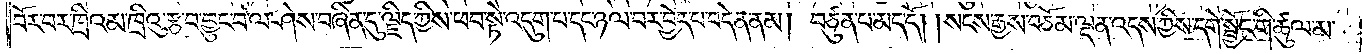བོར་བར་ཁྲིའམ་ཁྲིའུ་རྩ་བ་བྱུང་བ་ལ་ཤེས་བཞིན་དུ་ལྗིད་ཀྱིས་ཕབ་སྟེ་འདུག་པ་དང་ཉལ་བར་བྱེད་པ་བདེན་ནམ། བཙུན་པ་མད་དོ། །སངས་རྒྱས་བཅོམ་ལྡན་འདས་ཀྱིས་དགེ་སྦྱོང་གི་ཚུལ་མ་
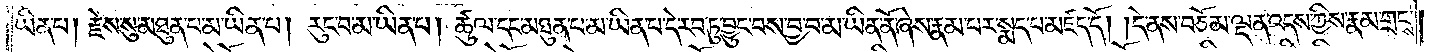ཡིན་པ། རྗེས་སུ་མཐུན་པ་མ་ཡིན་པ། རུང་བ་མ་ཡིན་པ། ཚུལ་དང་མཐུན་པ་མ་ཡིན་པ་དེ་རབ་ཏུ་བྱུང་བས་བྱ་བ་མ་ཡིན་ནོ་ཞེས་རྣམ་པར་སྨད་པ་མཛད་དོ། །དེ་ནས་བཅོམ་ལྡན་འདས་ཀྱིས་རྣམ་གྲངས་
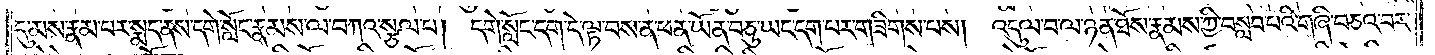དུ་མས་རྣམ་པར་སྨད་ནས་དགེ་སློང་རྣམས་ལ་བཀའ་སྩལ་པ། དགེ་སློང་དག་དེ་ལྟ་བས་ན་ཕན་ཡོན་བཅུ་ཡང་དག་པར་གཟིགས་པས། འདུལ་བ་ལ་ཉན་ཐོས་རྣམས་ཀྱི་བསླབ་པའི་གཞི་བཅའ་བར་
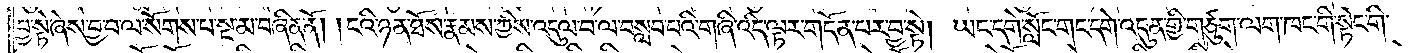བྱ་སྟེ་ཞེས་བྱ་བ་ལ་སོགས་པ་སྔ་མ་བཞིན་ནོ། །ངའི་ཉན་ཐོས་རྣམས་ཀྱིས་འདུལ་བ་ལ་བསླབ་པའི་གཞི་འདི་ལྟར་གདོན་པར་བྱ་སྟེ། ཡང་དགེ་སློང་གང་དགེ་འདུན་གྱི་གཙུག་ལག་ཁང་གི་སྟེང་གི་
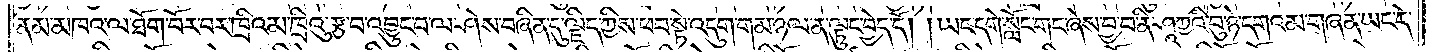ནམ་མཁའ་ལ་ཐོག་བོར་བར་ཁྲིའམ་ཁྲིའུ་རྩ་བ་འབྱུང་བ་ལ་ཤེས་བཞིན་དུ་ལྗིད་ཀྱིས་ཕབ་སྟེ་འདུག་གམ་ཉལ་ན་ལྟུང་བྱེད་དོ། །ཡང་དགེ་སློང་གང་ཞེས་བྱ་བ་ནི་ཤཱཀྱའི་བུ་ཉེ་དགའ་མ་གཞན་ཡང་དེ་
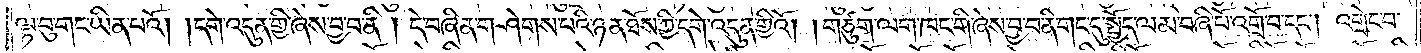ལྟ་བུ་གང་ཡིན་པའོ། །དགེ་འདུན་གྱི་ཞེས་བྱ་བ་ནི། དེ་བཞིན་གཤེགས་པའི་ཉན་ཐོས་ཀྱི་དགེ་འདུན་གྱིའོ། །གཙུག་ལག་ཁང་གི་ཞེས་བྱ་བ་ནི་གང་དུ་སྤྱོད་ལམ་བཞི་པོ་འགྲོ་བ་དང༌། འགྲེང་བ་
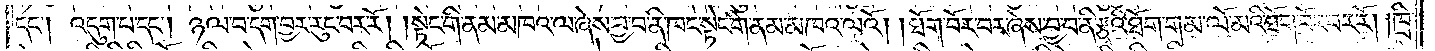དང༌། འདུག་པ་དང༌། ཉལ་བ་དག་བྱར་རུང་བར་རོ། །སྟེང་གི་ནམ་མཁའ་ལ་ཞེས་བྱ་བ་ནི་ཁང་སྟེང་གི་ནམ་མཁའ་ལའོ། །ཐོག་བོར་བར་ཞེས་བྱ་བ་ནི་རྩྭའི་ཐོག་གམ་ལོ་མའི་ཐོག་བོར་བར་རོ། །ཁྲི་
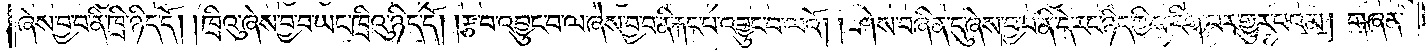ཞེས་བྱ་བ་ནི་ཁྲི་ཉིད་དོ། །ཁྲིའུ་ཞེས་བྱ་བ་ཡང་ཁྲིའུ་ཉིད་དོ། །རྩ་བ་འབྱུང་བ་ལ་ཞེས་བྱ་བ་ནི་རྐང་པ་འབྱུང་བ་ལའོ། །ཤེས་བཞིན་དུ་ཞེས་བྱ་བ་ནི་དེ་རང་ཉིད་ཀྱིས་རིག་པར་གྱུར་པའམ། གཞན་
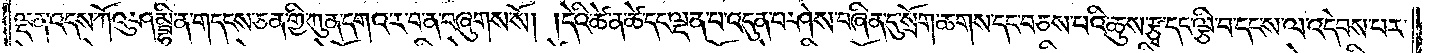ལྡན་འདས་ཀོའུ་ཤམྦྷི་ན་གདངས་ཅན་གྱི་ཀུན་དགའ་ར་བ་ན་བཞུགས་སོ། །དེའི་ཚེ་ན་ཚེ་དང་ལྡན་པ་འདུན་པ་ཤེས་བཞིན་དུ་སྲོག་ཆགས་དང་བཅས་པའི་ཆུས་རྩྭ་དང་ལྕི་བ་དང་ས་ལ་འདེབས་པར་
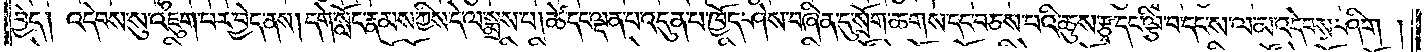བྱེད། འདེབས་སུ་འཇུག་པར་བྱེད་ནས། དགེ་སློང་རྣམས་ཀྱིས་དེ་ལ་སྨྲས་པ། ཚེ་དང་ལྡན་པ་འདུན་པ་ཁྱོད་ཤེས་བཞིན་དུ་སྲོག་ཆགས་དང་བཅས་པའི་ཆུས་རྩྭ་དང་ལྕི་བ་དང་ས་ལ་མ་འདེབས་ཤིག །
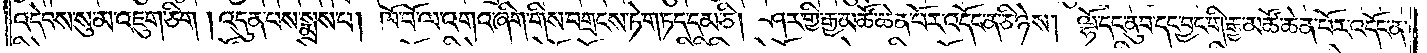འདེབས་སུ་མ་འཇུག་ཅིག །འདུན་པས་སྨྲས་པ། ཁོ་བོ་ལ་འགའ་ཞིག་གིས་བགྲངས་ཏེ་གཏད་དམ་ཅི། ཤར་གྱི་རྒྱ་མཚོ་ཆེན་པོར་འདོང་ན་ཅི་ཉེས། ལྷོ་དང་ནུབ་དང་བྱང་གི་རྒྱ་མཚོ་ཆེན་པོར་འདོང་ན་
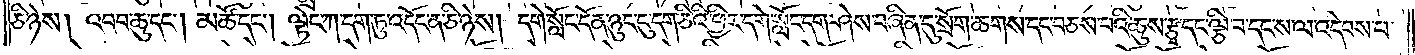ཅི་ཉེས། འབབ་ཆུ་དང༌། མཚོ་དང༌། ལྟེང་ཀ་དག་ཏུ་འདོང་ན་ཅི་ཉེས། དགེ་སློང་དོན་ཉུང་དུ་དག་ཅིའི་ཕྱིར་དགེ་སློང་དག་ཤེས་བཞིན་དུ་སྲོག་ཆགས་དང་བཅས་པའི་ཆུས་རྩྭ་དང་ལྕི་བ་དང་ས་ལ་འདེབས་པ་
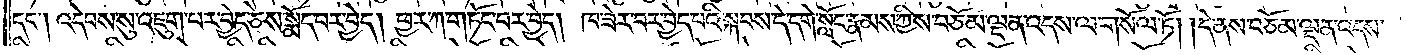དང༌། འདེབས་སུ་འཇུག་པར་བྱེད་ཅེས་སྨོད་པར་བྱེད། ཕྱར་ཀ་གཏོང་བར་བྱེད། ཁ་ཟེར་བར་བྱེད་པའི་སྐབས་དེ་དགེ་སློང་རྣམས་ཀྱིས་བཅོམ་ལྡན་འདས་ལ་གསོལ་ཏོ། །དེ་ནས་བཅོམ་ལྡན་འདས་
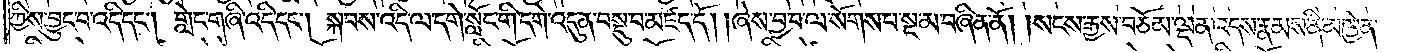ཀྱིས་བྱུང་བ་འདི་དང༌། གླེང་གཞི་འདི་དང༌། སྐབས་འདི་ལ་དགེ་སློང་གི་དགེ་འདུན་བསྡུ་བ་མཛད་དོ། །ཞེས་བྱ་བ་ལ་སོགས་པ་སྔ་མ་བཞིན་ནོ། །སངས་རྒྱས་བཅོམ་ལྡན་འདས་རྣམས་ནི་མཁྱེན་
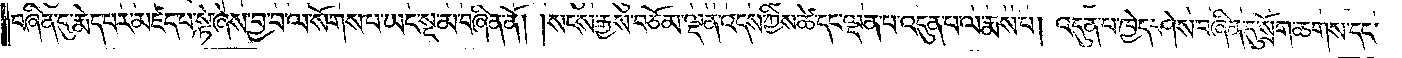བཞིན་དུ་རྨེད་པར་མཛད་པ་སྟེ་ཞེས་བྱ་བ་ལ་སོགས་པ་ཡང་སྔ་མ་བཞིན་ནོ། །སངས་རྒྱས་བཅོམ་ལྡན་འདས་ཀྱིས་ཚེ་དང་ལྡན་པ་འདུན་པ་ལ་རྨས་པ། འདུན་པ་ཁྱེད་ཤེས་བཞིན་དུ་སྲོག་ཆགས་དང་
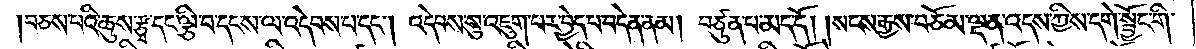བཅས་པའི་ཆུས་རྩྭ་དང་ལྕི་བ་དང་ས་ལ་འདེབས་པ་དང༌། འདེབས་སུ་འཇུག་པར་བྱེད་པ་བདེན་ནམ། བཙུན་པ་མད་དོ། །སངས་རྒྱས་བཅོམ་ལྡན་འདས་ཀྱིས་དགེ་སྦྱོང་གི་
